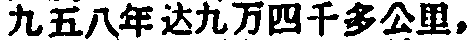九五八年达九万四千多公里，
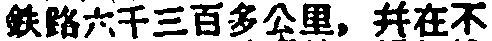鉄路六千三百多公里，并在不
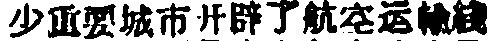少重要城市开辟了航空运輸綫
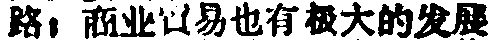路；商业贸易也有极大的发展
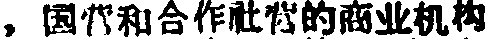，国营和合作社营的商业机构
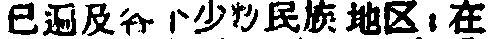已遍及各个少数民族地区；在
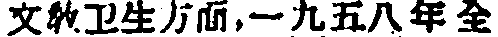文教卫生方面，一九五八年全
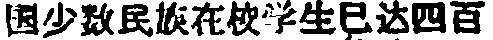国少数民族在校学生已达四百
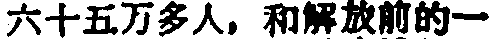六十五万多人，和解放前的一
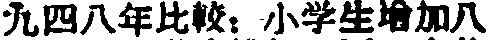九四八年比較：小学生增加八
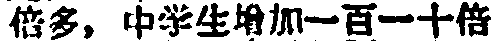倍多，中学生增加一百一十倍
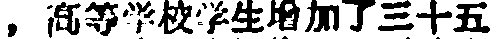，高等学校学生增加了三十五
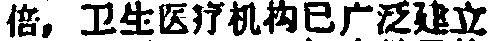倍，卫生医疗机构已广泛建立
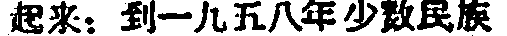起来：到一九五八年少数民族
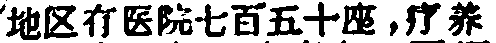地区有医院七百五十座，疗养
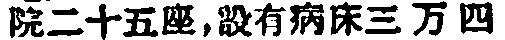院二十五座，設有病床三万四
